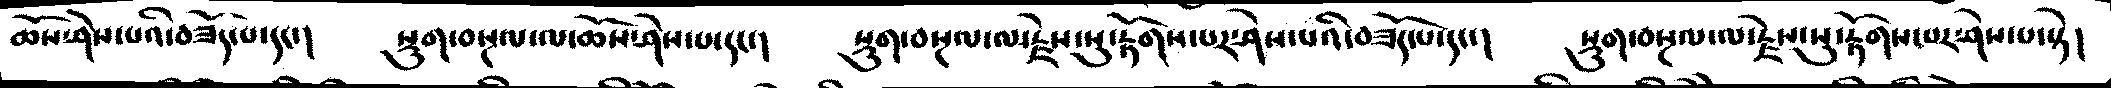ཆོས་ཤེས་པའི་བཟོད་པ་དང་།  སྡུག་བསྔལ་ལ་ཆོས་ཤེས་པ་དང་།  སྡུག་བསྔལ་ལ་རྗེས་སུ་རྟོགས་པར་ཤེས་པའི་བཟོད་པ་དང་།  སྡུག་བསྔལ་ལ་རྗེས་སུ་རྟོགས་པར་ཤེས་པ་སྟེ།
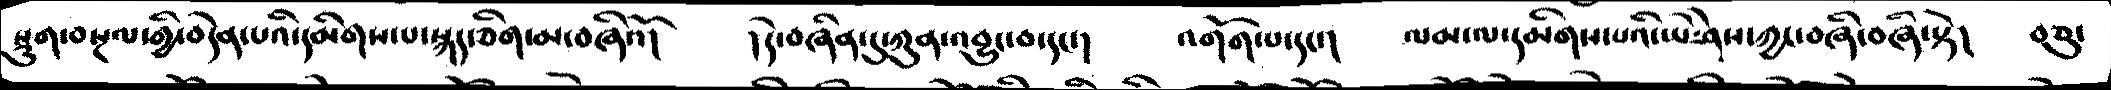སྡུག་བསྔལ་གྱི་བདེན་པའི་དམིགས་པ་སྐད་ཅིག་མ་བཞིའོ་།   །དེ་བཞིན་དུ་ཀུན་འབྱུང་བ་དང་།   འགོག་པ་དང་།   ལམ་ལ་དམིགས་པའི་ཡེ་ཤེས་ཀྱང་བཞི་བཞི་སྟེ།   བཅུ་
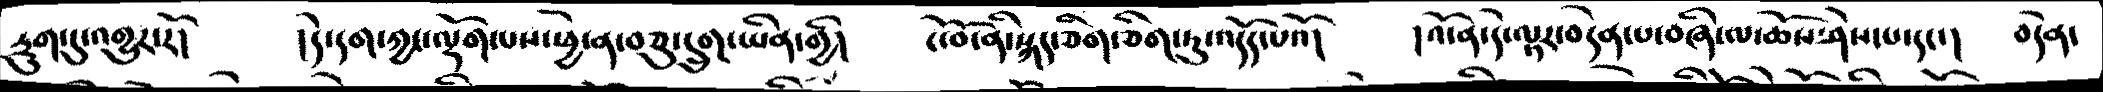ཏྲུག་དུ་འགྱུར་རོ།   །དེ་དག་ཀྱང་ལྟོག་པས་ཕྱེ་ན་བཅུ་དྲུག་ཡིན་གྱི།   ངོ་བོ་ནི་སྐད་ཅིག་ཅིག་ཏུ་འདོད་པའོ།  །འོ་ན་དེ་ལྟར་བདེན་པ་བཞི་ལ་ཆོས་ཤེས་པ་དང་།  བདེན་
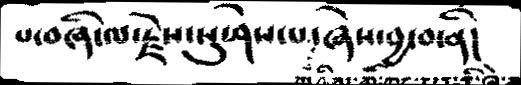པ་བཞི་ལ་རྗེས་སུ་ཤེས་པ་ཞེས་བྱ་ན་ནི།
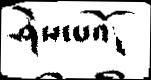ཤེས་པའོ།
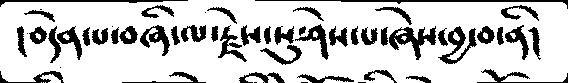།བདེན་པ་བཞི་ལ་རྗེས་སུ་ཤེས་པ་ཞེས་བྱ་བ་ནི།
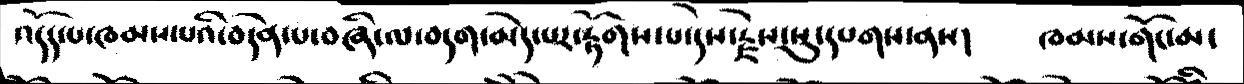འདོད་པ་ཁམས་པའི་བདེན་པ་བཞི་ལ་བདག་མེད་པར་རྟོགས་པ་དེས་རྗེས་སུ་དཔགས་ནས།   ཁམས་གོང་མ་
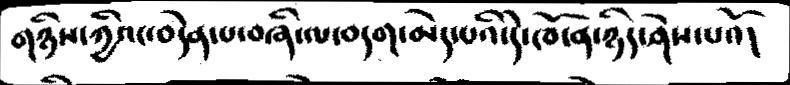གཉིས་ཀྱིའང་བདེན་པ་བཞི་ལ་བདག་མེད་པའི་དེ་ཁོ་ན་ཉིད་ཤེས་པའོ།
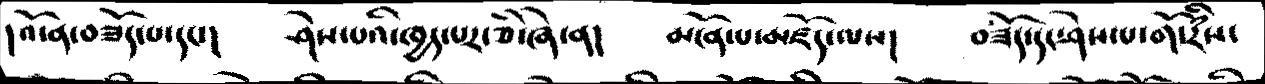།འོ་ན་བཟོད་པ་དང་།    ཤེས་པའི་ཁྱད་པར་ཅི་ཞེ་ན།   མངོན་པ་མཛོད་ལས།   བཟོད་དང་ཤེས་པ་གོ་རིཾས་
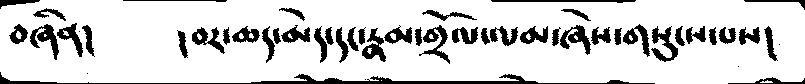བཞིན་།    །བར་ཆད་མེད་དང་རྣམ་གྲོལ་ལམ་ཞེས་གསུངས་པས།
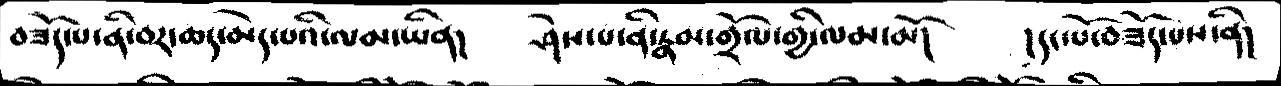བཟོད་པ་ནི་བར་ཆད་མེད་པའི་ལམ་ཡིན།    ཤེས་པ་ནི་རྣམ་གྲོལ་གྱི་ལམ་མོ།    །དང་པོ་བཟོད་པས་ནི།
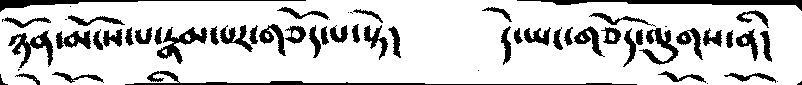ཉོན་མངོས་པ་རྣམ་པར་གཅོད་པ་སྟེ།    དེ་ཡང་གཅོད་ལུགས་ནི།
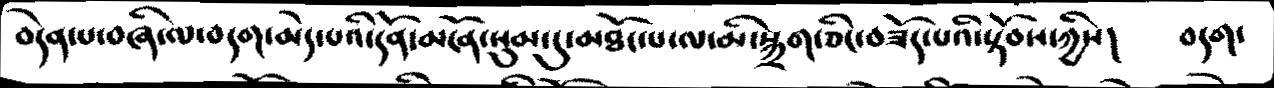བདེན་པ་བཞི་ལ་བདག་མེད་པའི་དོན་མངོན་སུམ་དུ་མཐོང་པ་ལ་མི་སྐྲག་ཅིང་བཟོད་པའི་སྟོབས་ཀྱིས།   བདག་
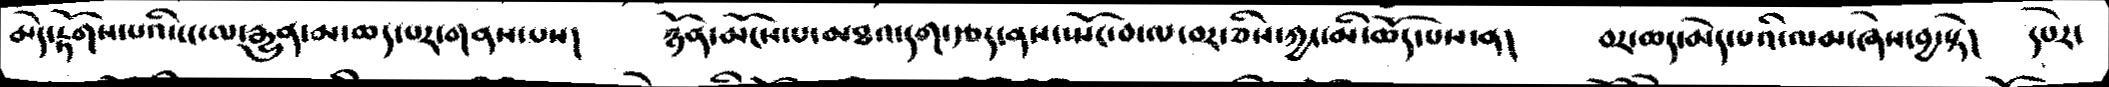མེད་རྟོགས་པའི་ངང་ལ་རྒྱུན་མ་ཆད་པར་གནས་པས།   ཉོན་མངོས་པ་མཐའ་དག་རྩད་ནས་སྤོང་བ་ལ་བར་ཅིས་ཀྱང་མི་ཆོད་པས་ན།   བར་ཆད་མེད་པའི་ལམ་ཞེས་བྱ་སྟེ།    དཔེར་
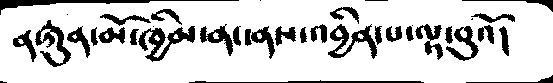ན་རྐུན་མོ་ཁྱིམ་ནང་ནས་འབྱིན་པ་ལྟ་བུའོ།
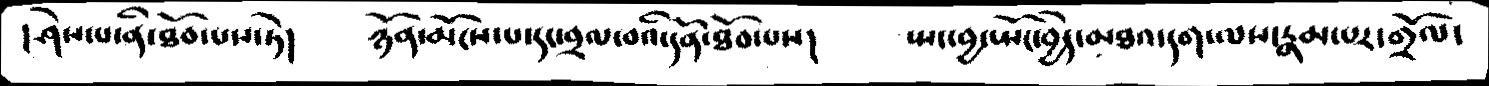།ཤེས་པ་ནི་ཐོབ་པས་ཏེ།  ཉོན་མོངས་པ་དང་བྲལ་བའི་དོན་ཐོབ་པས།  སྤང་བྱ་སྤོང་བྱེད་མཐའ་དག་ལས་རྣམ་པར་གྲོལ་
